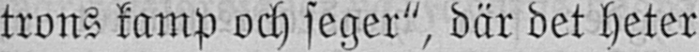trons kamp och seger", där det heter
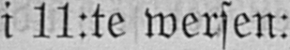i 11:te wersen:
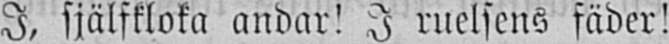I, själfkloka andar! I ruelsens fäder!
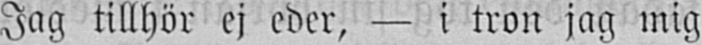Jag tillhör ej eder, — i tron jag mig
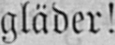gläder!
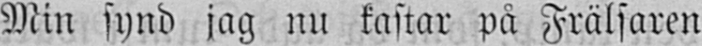Min synd jag nu kastar på Frälsaren
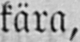kära,
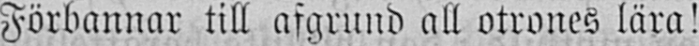Förbannar till afgrund all otrones lära!
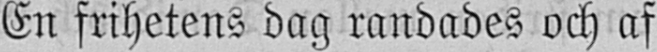En frihetens dag randades och af
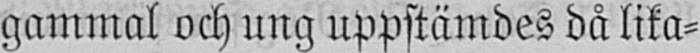gammal och ung uppstämdes då lika-
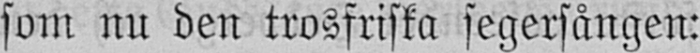som nu den trosfriska segersången:
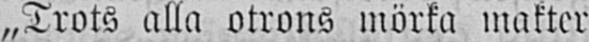„Trots alla otrons mörka makter
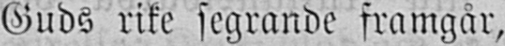Guds rike segrande framgår,
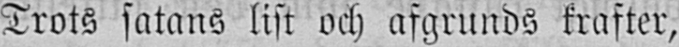Trots satans list och afgrunds krafter,
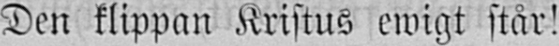Den klippan Kristus ewigt står!
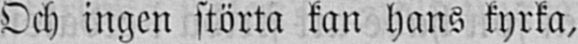Och ingen störta kan hans kyrka,
